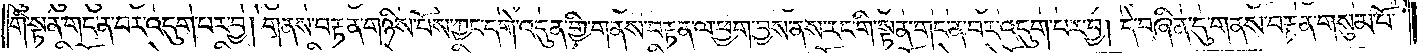གི་སྟན་གང་ན་བར་འདུག་པར་བྱ། གནས་བརྟན་གཉིས་པོས་ཀྱང་དགེ་འདུན་གྱི་གནས་བརྟན་ལ་ཕྱག་བྱས་ནས་རང་གི་སྟན་གང་ན་བར་འདུག་པར་བྱ། དེ་བཞིན་དུ་གནས་བརྟན་གསུམ་པོ་
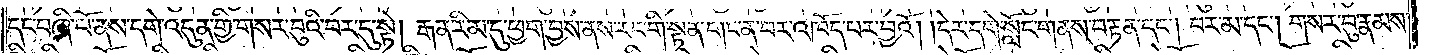དང་བཞི་པོ་ནས་དགེ་འདུན་གྱི་གསར་བུའི་བར་དུ་སྟེ། རྒན་རིམ་དུ་ཕྱག་བྱས་ནས་རང་གི་སྟན་གང་ན་བར་འཁོད་པར་བྱའོ། །དེར་དགེ་སློང་གནས་བརྟན་དང༌། བར་མ་དང༌། གསར་བུ་རྣམས་
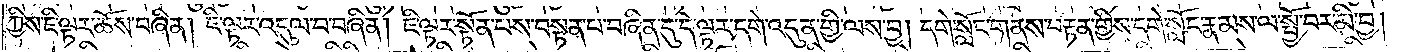ཀྱིས་ཇི་ལྟར་ཆོས་བཞིན། ཇི་ལྟར་འདུལ་བ་བཞིན། ཇི་ལྟར་སྟོན་པས་བསྟན་པ་བཞིན་དུ་དེ་ལྟར་དགེ་འདུན་གྱི་ལས་བྱ། དགེ་སློང་གནས་བརྟན་གྱིས་དགེ་སློང་རྣམས་ལ་སྤྱོ་བར་མི་བྱ།
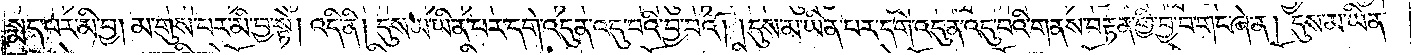སྨད་པར་མི་བྱ། མ་གུས་པར་མི་བྱ་སྟེ། འདི་ནི། དུས་མ་ཡིན་པར་དགེ་འདུན་འདུ་བའི་བྱ་བའོ། །དུས་མ་ཡིན་པར་དགེ་འདུན་འདུ་བའི་གནས་བརྟན་གྱི་བྱ་བ་གང་ཞེ་ན། དུས་མ་ཡིན་
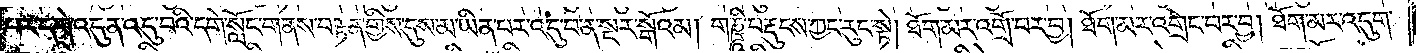པར་དགེ་འདུན་འདུ་བའི་དགེ་སློང་གནས་བརྟན་གྱིས་དུས་མ་ཡིན་པར་འདུ་བ་ན་སྔར་སྒོའམ། གཎྜཱི་བརྡུངས་ཀྱང་རུང་སྟེ། ཐོག་མར་འགྲོ་བར་བྱ། ཐོག་མར་འགྲེང་བར་བྱ། ཐོག་མར་འདུག་
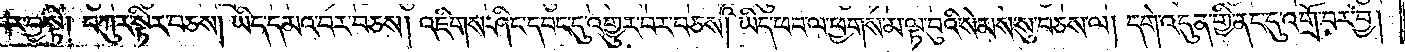པར་བྱ་སྟེ། བཀུར་སྟིར་བཅས། ཡིད་དམའ་བར་བཅས། འཇིགས་ཤིང་དབང་དུ་འགྱུར་བར་བཅས། ཡིད་ཕབ་ལ་ཕྱགས་མ་ལྟ་བུའི་སེམས་སུ་བཅས་ལ། དགེ་འདུན་གྱི་ནང་དུ་འགྲོ་བར་བྱ།
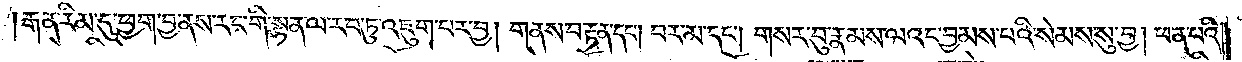རྒན་རིམ་དུ་ཕྱག་བྱ་ནས་རང་གི་སྟན་ལ་རབ་ཏུ་འཇུག་པར་བྱ། གནས་བརྟན་དང༌། བར་མ་དང༌། གསར་བུ་རྣམས་ལའང་བྱམས་པའི་སེམས་སུ་བྱ། ཕན་པའི་
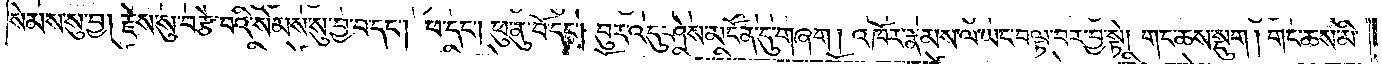སེམས་སུ་བྱ། རྗེས་སུ་བརྩེ་བའི་སེམས་སུ་བྱ་བ་དང༌། ཕ་དང༌། ཕུ་ནུ་བོ་དང༌། བུར་འདུ་ཤེས་མངོན་དུ་གཞག། འཁོར་རྣམས་ལ་ཡང་བལྟ་བར་བྱ་སྟེ། གང་ཆས་སྡུག། གང་ཆས་མི་
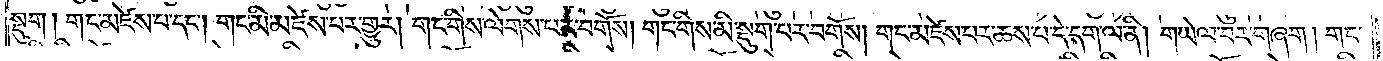སྡུག། གང་མཛེས་པ་དང༌། གང་མི་མཛེས་པར་གྱུར། གང་གིས་ལེགས་པར་བགོས། གང་གིས་མི་སྡུག་པར་བགོས། གང་མཛེས་པར་ཆས་པ་དེ་དག་ལ་ནི། གཡེལ་བར་གཞག། གང་
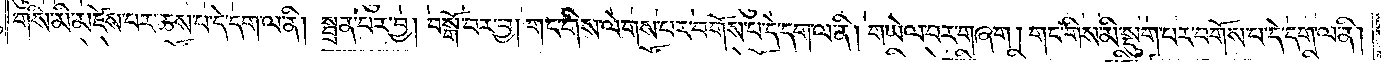གིས་མི་མཛེས་པར་ཆས་པ་དེ་དག་ལ་ནི། སྦྲན་པར་བྱ། བསྒོ་བར་བྱ། གང་གིས་ལེགས་པར་བགོས་པ་དེ་དག་ལ་ནི། གཡེལ་བར་གཞག །གང་གིས་མི་སྡུག་པར་བགོས་པ་དེ་དག་ལ་ནི།
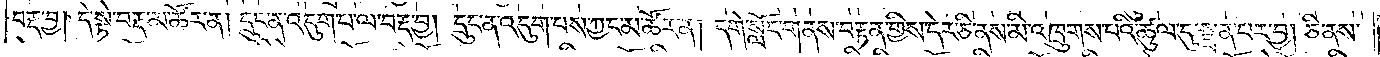བརྡ་བྱ། དེ་སྟེ་བརྡ་མ་ཚོར་ན། དྲུང་ན་འདུག་པ་ལ་བརྡ་བྱ། དྲུང་ན་འདུག་པས་ཀྱང་མ་ཚོར་ན། དགེ་སློང་གནས་བརྟན་གྱིས་དེར་ཅི་ནས་མི་འཁྲུགས་པའི་ཚུལ་དུ་སྦྲན་པར་བྱ། ཅི་ནས་
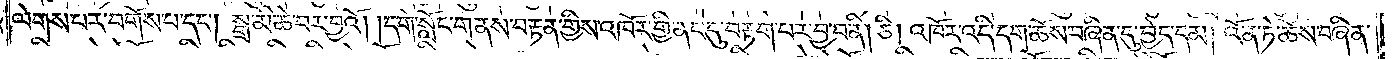ལེགས་པར་བགོས་པ་དང༌། སྒྲ་མི་ཆེ་བར་བྱའོ། །དགེ་སློང་གནས་བརྟན་གྱིས་འཁོར་གྱི་ནང་དུ་བརྟག་པར་བྱ་བ་ནི། ཅི། འཁོར་འདི་དག་ཆོས་བཞིན་དུ་བྱེད་དམ། འོན་ཏེ་ཆོས་བཞིན་
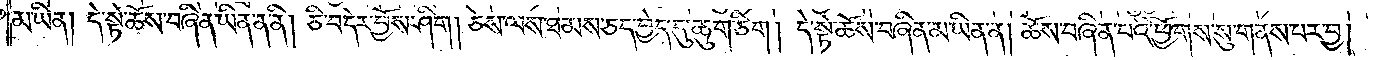མ་ཡིན། དེ་སྟེ་ཆོས་བཞིན་ཡིན་ན་ནི། ཅི་བདེར་བྱོས་ཤིག། ཅེས་ལས་ཐམས་ཅད་བྱེད་དུ་ཆུག་ཅིག། དེ་སྟེ་ཆོས་བཞིན་མ་ཡིན་ན། ཆོས་བཞིན་པའི་ཕྱོགས་སུ་གནས་པར་བྱ།
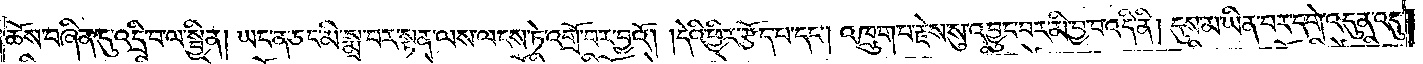ཆོས་བཞིན་དུ་འདྲི་བ་ལ་སྦྱིན། ཡང་ན་ཅང་མི་སྲ་བར་སྟན་ལས་ལངས་ཏེ་འགྲོ་བར་བྱའོ། །དེའི་ཕྱིར་རྩོད་པ་དང༌། འཁྲུག་པ་རྗེས་སུ་འབྱུང་བར་མི་བྱ་བ་འདི་ནི། དུས་མ་ཡིན་པར་དགེ་འདུན་འདུ་
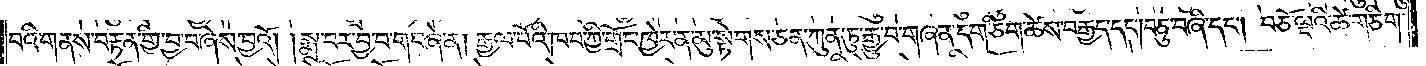བའི་གནས་བརྟན་གྱི་བྱ་བ་ཞེས་བྱའོ། །སྨྲ་བར་བྱ་བ་གང་ཞེ་ན། རྒྱལ་པོའི་ཁབ་ཀྱི་གྲོང་ཁྱེར་ན་མུ་སྟེགས་ཅན་ཀུན་ཏུ་རྒྱུ་བ་གཞན་དག་ཅིག་ཚེས་བརྒྱད་དང༌། བཅུ་བཞི་དང༌། བཅོ་ལྔའི་ཚེ་གཅིག་
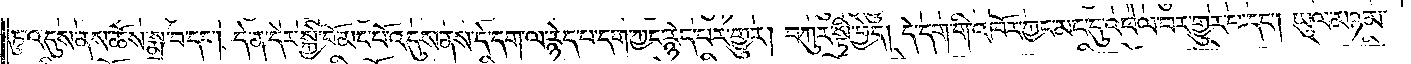ཏུ་འདུས་ནས་ཆོས་སྨྲ་བ་དང༌། དེ་ན་དེར་སྐྱེ་བོ་མང་པོ་འདུས་ནས་དེ་དག་ལ་རྙེད་པ་དག་ཀྱང་རྙེད་པར་གྱུར། བཀུར་སྟི་བྱེད། དེ་དག་གི་འཁོར་ཀྱང་མང་དུ་འཕེལ་བར་གྱུར་པ་དང༌། ཡུལ་མཉམ་
